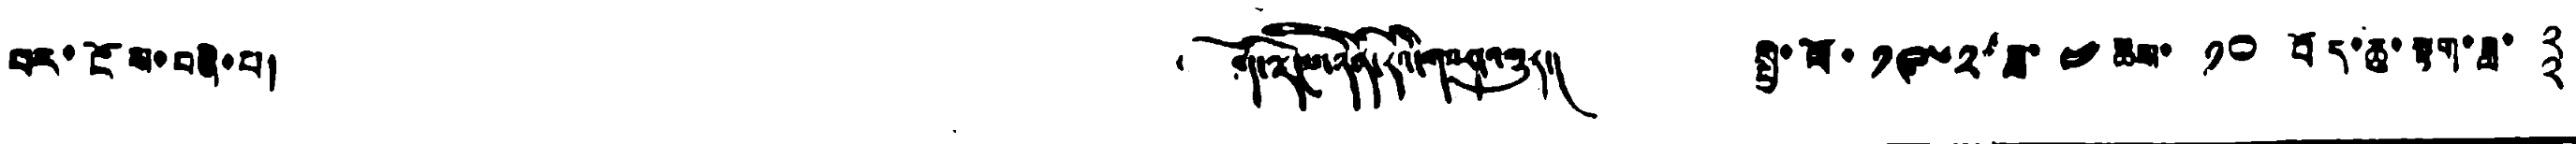པར་ངོས་བཞི་པ། ༄ བོད་ལྗོངས་ཉིན་རེའི་གསར་འགྱུར། སྤྱི་ལོ་ ༡༩༦༢ ཟླ་ ༤ ཚེས་ ༡༠ བོད་ཆུ་སྟག་ཟླ་ ༢
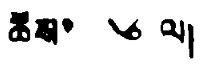ཚེས་ ༦ པ།
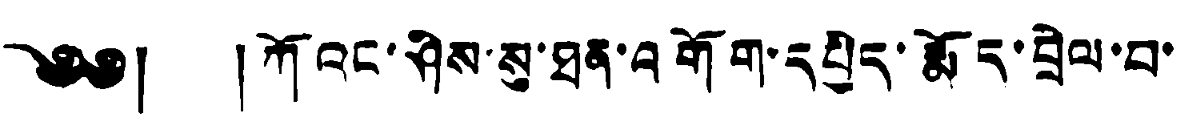༄༅། །ཀོའང་ཤིས་སུ་ཐན་འགོག་དཔྱིད་རྨོད་བྲེལ་བ་
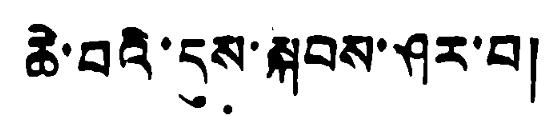ཆེ་བའི་དུས་སྐབས་ཤར་བ།
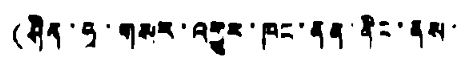(ཤིན་ཧྭ་གསར་འགྱུར་ཁང་ནན་ནིང་ནས་་
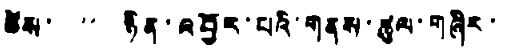ཚེས་ ༧ ཉིན་འབྱོར་པའི་གནས་ཚུལ་གཞིར་
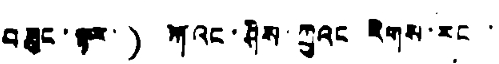བཟུང་ལྟར་) ཀོའང་ཤིས་ཀྲུའང་རིགས་རང་
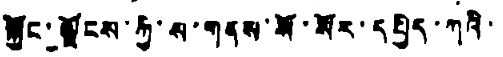སྐྱོང་ལྗོངས་ཀྱི་ས་གནས་སོ་སོར་དཔྱིད་ཀའི་
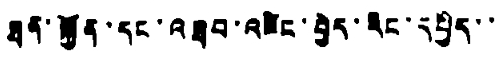ཐན་སྐྱོན་དང་འཐབ་འཛིང་བྱེད་རིང་དཔྱིད་་
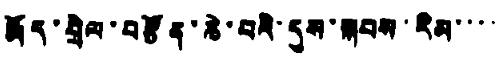རྨོད་བྲེལ་བརྩོན་ཆེ་བའི་དུས་སྐབས་རིམ་་་་
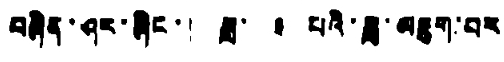བཞིན་ཤར་ཞིང་། ཟླ་ ༣ པའི་ཟླ་མཇུག་པར
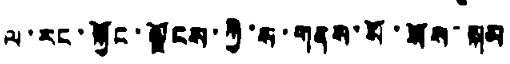ལ་རང་སྐྱོང་ལྗོངས་ཀྱི་ས་གནས་སོ་སོས་སྐམ
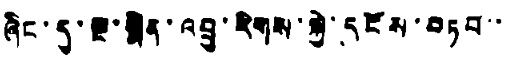ཞིང་དུ་སྔ་སྨིན་འབྲུ་རིགས་སྐྱེ་དངོས་བཏབ་་
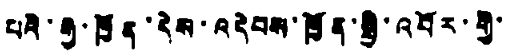པའི་རྒྱ་ཁྱོན་དེས་འདེབས་ཁྱོན་སྤྱི་འབོར་གྱི་
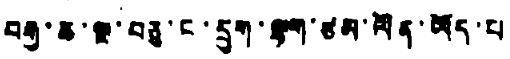བརྒྱ་ཆ་ལྔ་བཅུ་ང་དྲུག་ལྷག་ཙམ་ལོན་ཡོད་པ
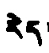རེད།
